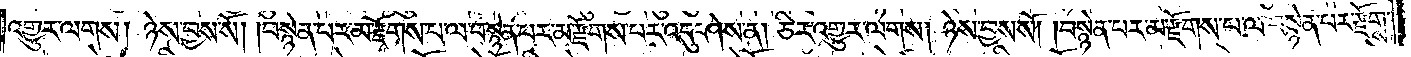འགྱུར་ལགས། ཉེས་བྱས་སོ། །བསྙེན་པར་མ་རྫོགས་པ་ལ་བསྙེན་པར་མ་རྫོགས་པར་འདུ་ཤེས་ན། ཅིར་འགྱུར་ལགས། ཉེས་བྱས་སོ། །བསྙེན་པར་མ་རྫོགས་པ་ལ་བསྙེན་པར་རྫོགས་
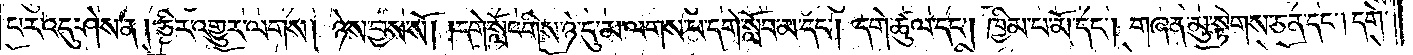པར་འདུ་ཤེས་ན་།ཅིར་འགྱུར་ལགས། ཉེས་བྱས་སོ། །དགེ་སློང་གིས་ཉེ་དུ་མ་ལགས་པ་དགེ་སློབ་མ་དང༌། དགེ་ཚུལ་དང༌། ཁྱིམ་པ་མོ་དང༌། གཞན་མུ་སྟེགས་ཅན་དང༌། དགེ་
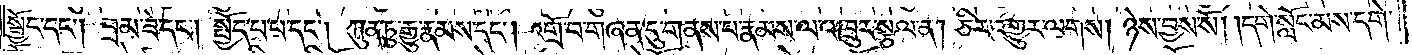སྦྱོང་དང༌། བྲམ་ཟེ་དང༌། སྤྱོད་པ་པ་དང༌། ཀུན་ཏུ་རྒྱུ་རྣམས་དང༌། འགྲོ་བ་གཞན་དུ་གནས་པ་རྣམས་ལ་འཁྲུར་སྩལ་ན། ཅིར་འགྱུར་ལགས། ཉེས་བྱས་སོ། །དགེ་སློང་མས་དགེ་
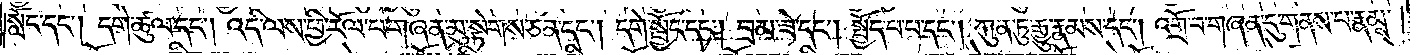སློང་དང༌། དགེ་ཚུལ་དང༌། འདི་ལས་ཕྱི་རོལ་པ་གཞན་མུ་སྟེགས་ཅན་དང༌། དགེ་སྦྱོང་དང༌། བྲམ་ཟེ་དང༌། སྤྱོད་པ་པ་དང༌། ཀུན་ཏུ་རྒྱུ་རྣམས་དང༌། འགྲོ་བ་གཞན་དུ་གནས་པ་རྣམས་
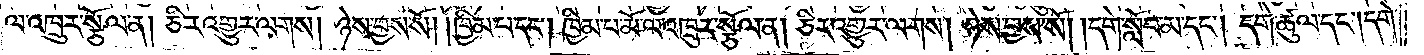ལ་འཁྲུར་སྩོལ་ན། ཅིར་འགྱུར་ལགས། ཉེས་བྱས་སོ། །ཁྱིམ་པ་དང༌། ཁྱིམ་པ་མོ་ལ་འཁྲུར་སྩོལ་ན། ཅིར་འགྱུར་ལགས། ཉེས་བྱས་སོ། །དགེ་སློབ་མ་དང༌། དགེ་ཚུལ་དང༌། དགེ་
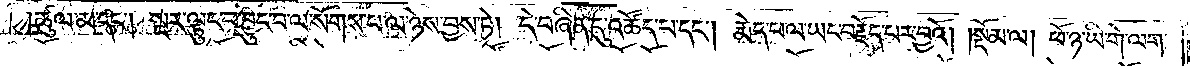།ཚུལ་མ་དང༌། སྔར་ལྟུང་བ་བྱུང་བ་ལ་སོགས་པ་ལ་ཉེས་བྱས་ཏེ། དེ་བཞིན་དུ་འཚོད་པ་དང༌། རྨེད་པ་ལ་ཡང་བརྗོད་པར་བྱའོ།    །སྡོམ་ལ། ཕོ་ཉ་ཡི་གེ་ལག་
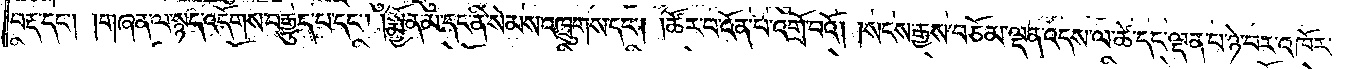བརྡ་དང༌། །གཞན་ལ་སྙད་འདོགས་བརྒྱུད་པ་དང༌། །སྨྱོན་མ་དང་ནི་སེམས་འཁྲུགས་དང༌། །ཚོར་བ་འོན་པ་འགྲོ་བའོ། །སངས་རྒྱས་བཅོམ་ལྡན་འདས་ལ་ཚེ་དང་ལྡན་པ་ཉེ་བར་འཁོར་
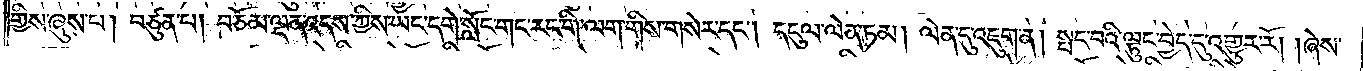གྱིས་ཞུས་པ། བཙུན་པ། བཅོམ་ལྡན་འདས་ཀྱིས་ཡང་དགེ་སློང་གང་རང་གི་ལག་གིས་གསེར་དང༌། དངུལ་ལེན་ཏམ། ལེན་དུ་འཇུག་ན། སྤང་བའི་ལྟུང་བྱེད་དུ་འགྱུར་རོ། །ཞེས་
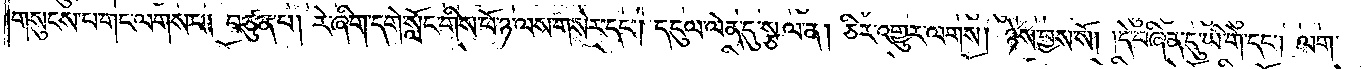གསུངས་པ་གང་ལགས་པ། བཙུན་པ། རེ་ཞིག་དགེ་སློང་གིས་ཕོ་ཉ་ལས་གསེར་དང༌། དངུལ་ལེན་དུ་སྩལ་ན། ཅིར་འགྱུར་ལགས། ཉེས་བྱས་སོ། །དེ་བཞིན་དུ་ཡི་གེ་དང༌། ལག་
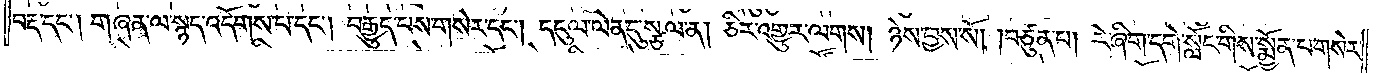བརྡ་དང༌། གཞན་ལ་སྙད་འདོགས་པ་དང༌། བརྒྱུད་པས་གསེར་དང༌། དངུལ་ལེན་དུ་སྩལ་ན། ཅིར་འགྱུར་ལགས། ཉེས་བྱས་སོ། །བཙུན་པ། རེ་ཞིག་དགེ་སློང་གིས་སྨྱོན་པ་གསེར་
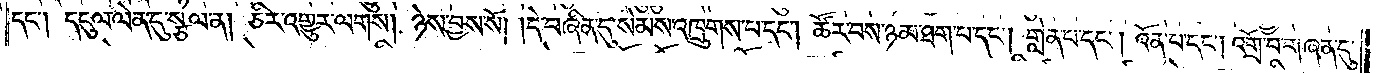དང༌། དངུལ་ལེན་དུ་སྩལ་ན། ཅིར་འགྱུར་ལགས། ཉེས་བྱས་སོ། །དེ་བཞིན་དུ་སེམས་འཁྲུགས་པ་དང༌། ཚོར་བས་ཉམ་ཐག་པ་དང༌། གླེན་པ་དང༌། འོན་པ་དང༌། འགྲོ་བ་གཞན་དུ་
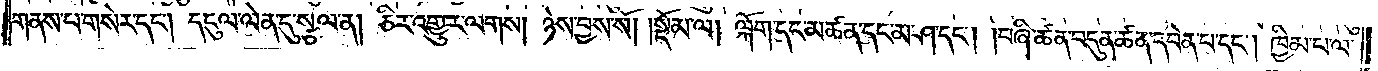གནས་པ་གསེར་དང༌། དངུལ་ལེན་དུ་སྩལ་ན། ཅིར་འགྱུར་ལགས། ཉེས་བྱས་སོ། །སྡོམ་ལ། ལྐོག་དང་མཚན་དང་མ་ཤ་དང༌། །བཞི་ཚན་བདུན་ཚན་དབེན་པ་དང༌། ཁྱིམ་པ་ལ་
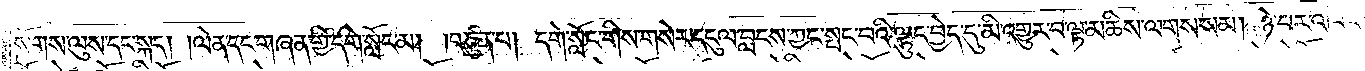སོགས་ལུས་དང་སྐད། །ལེན་དང་གཞན་གྱི་དགེ་སློང་མ། །བཙུན་པ། དགེ་སློང་གིས་གསེར་དངུལ་བླངས་ཀྱང་སྤང་བའི་ལྟུང་བྱེད་དུ་མི་འགྱུར་བ་ལྟ་མཆིས་ལགས་སམ། ཉེ་བར་འཁོར།
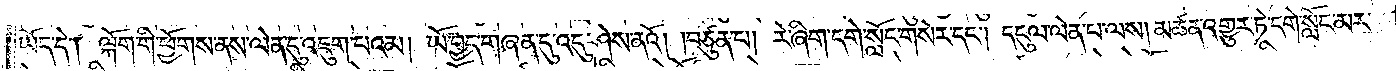ཡོད་དེ། ལྐོག་གི་ཕྱོགས་ནས་ལེན་དུ་འཇུག་པའམ། ཡོ་བྱད་གཞན་དུ་འདུ་ཤེས་ནའོ། །བཙུན་པ། རེ་ཞིག་དགེ་སློང་གསེར་དང༌། དངུལ་ལེན་པ་ལས། མཚན་འགྱུར་ཏེ་དགེ་སློང་མར་
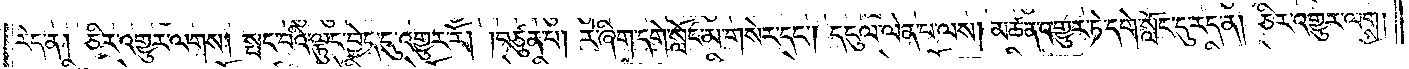རེད་ན། ཅིར་འགྱུར་ལགས། སྤང་བའི་ལྟུང་བྱེད་དུ་འགྱུར་རོ། །བཙུན་པ། རེ་ཞིག་དགེ་སློང་མ་གསེར་དང༌། དངུལ་ལེན་པ་ལས། མཚན་འགྱུར་ཏེ་དགེ་སློང་དུ་རེད་ན། ཅིར་འགྱུར་ལགས།
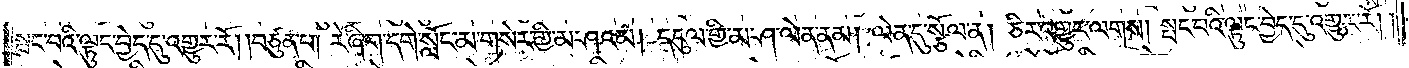སྤང་བའི་ལྟུང་བྱེད་དུ་འགྱུར་རོ། །བཙུན་པ། རེ་ཞིག་དགེ་སློང་མ་གསེར་གྱི་མ་ཤའམ། དངུལ་གྱི་མ་ཤ་ལེན་ནམ། ལེན་དུ་སྩོལ་ན། ཅིར་འགྱུར་ལགས། སྤང་བའི་ལྟུང་བྱེད་དུ་འགྱུར་རོ། །
